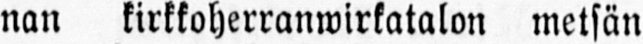nan kirkkoherranwirkatalon metsän
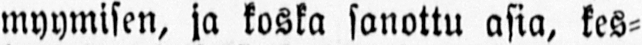myymisen, ja koska sanottu asia, kes-
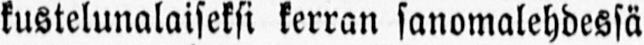kustelunalaiseksi kerran sanomalehdessä
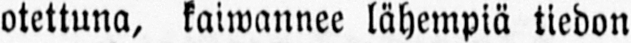otettuna, kaiwannee lähempiä tiedon
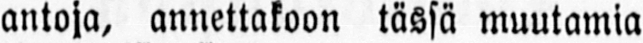antoja, annettakoon tässä muutamia
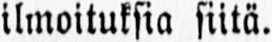ilmoituksia siitä.
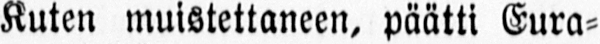Kuten muistettaneen, päätti Eura-
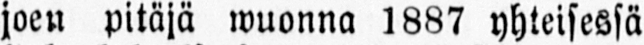joen pitäjä wuonna 1887 yhteisessä
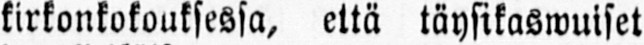kirkonkokouksessa, että täysikaswuiset
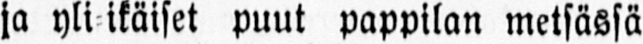ja yli-ikäiset puut pappilan metsässä
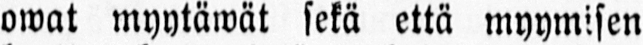owat myytäwät sekä että myymisen
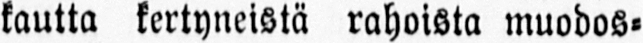kautta kertyneistä rahoista muodos-
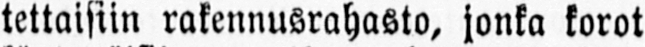tettaisiin rakennusrahasto, jonka korot
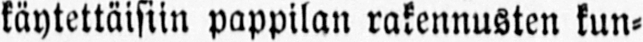käytettäisiin pappilan rakennusten kun-
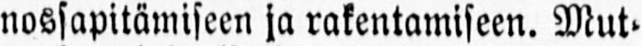nossapitämiseen ja rakentamiseen. Mut-
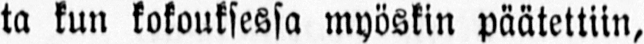ta kun kokouksessa myöskin päätettiin,
